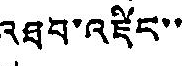འཐབ་འཛིང་་
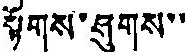སྟོགས་ཤུགས་་
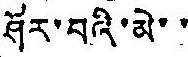ཤོར་བའི་མེ་་
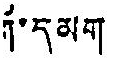ཀོ་དམག
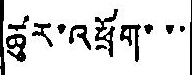ཚུར་འཕྲོག་་་་
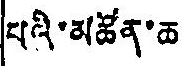པའི་མཚོན་ཆ
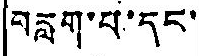བརླག་པ་དང་
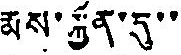རྨས་སྐྱོན་དུ་་
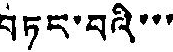བཏང་བའི་་་
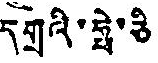དགྲའི་ཧྥེ་ཅི་
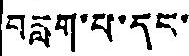བརླག་པ་དང་
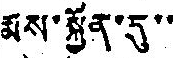རྨས་སྐྱོན་དུ་་
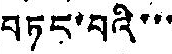བཏང་བའི་་་
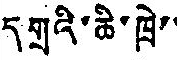དགྲའི་ཆི་ཁྲེ་་
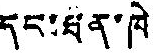དང་ཐན་ཁེ་
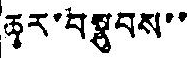ཆུར་བསྣུབས་་
